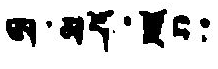ཨ་མདོ་རྫོང་
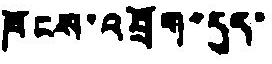ཁོངས་འབྲོག་དུད་
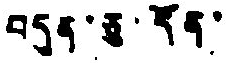བདུན་ཅུ་དོན་
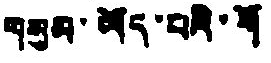གསུམ་ཡོད་པའི་གོ་
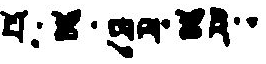པོ་ཚོ་ཡུལ་ཚོའི་་
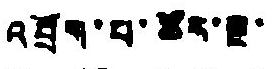འབྲོག་པ་ཚོར་སྔ་
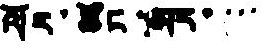ལོར་ཚོང་མར་་་་
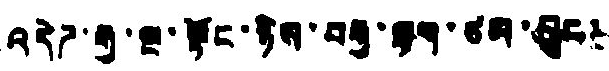འདེཌ་རྒྱ་ལྔ་སྟོང་ཉིས་བརྒྱ་ལྷག་ཙམ་བྱུང་
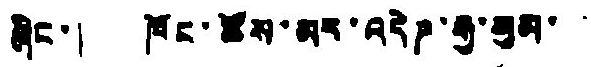ཞིང་། ཁོང་ཚོས་མར་འདེཌ་རྒྱ་མུམ་་
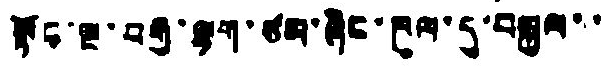སྟོང་ལྔ་བརྒྱ་ལྷག་ཙམ་ཞིང་ཁུལ་དུ་བསྐྱལ་་
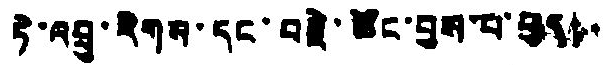ཏེ་འབྲུ་རིགས་དང་བརྗེ་ཚོང་བྱས་པ་བྱད།
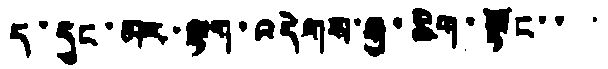ད་དུང་མར་ལྷག་འདེགས་རྒྱ་ཆིག་སྟོང་་་
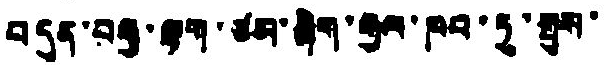བདུན་བརྒྱ་ལྷག་ཙམ་ཞིག་རྒྱལ་ཁབ་ཏུ་སྤུས་
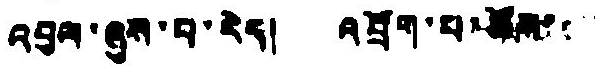འབུལ་ཞུས་བ་རེད། འབྲོག་པ་ཚོས་་་་
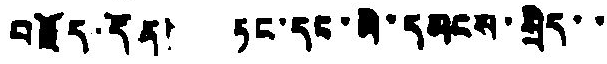བརྗོད་དོན། ཏང་དང་མི་དམངས་སྲིད་་
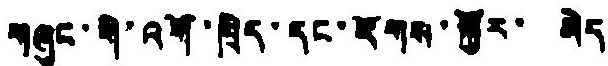གཞུང་གི་འགོ་ཁྲིད་དང་རོགས་སྐྱོར་ མེད
